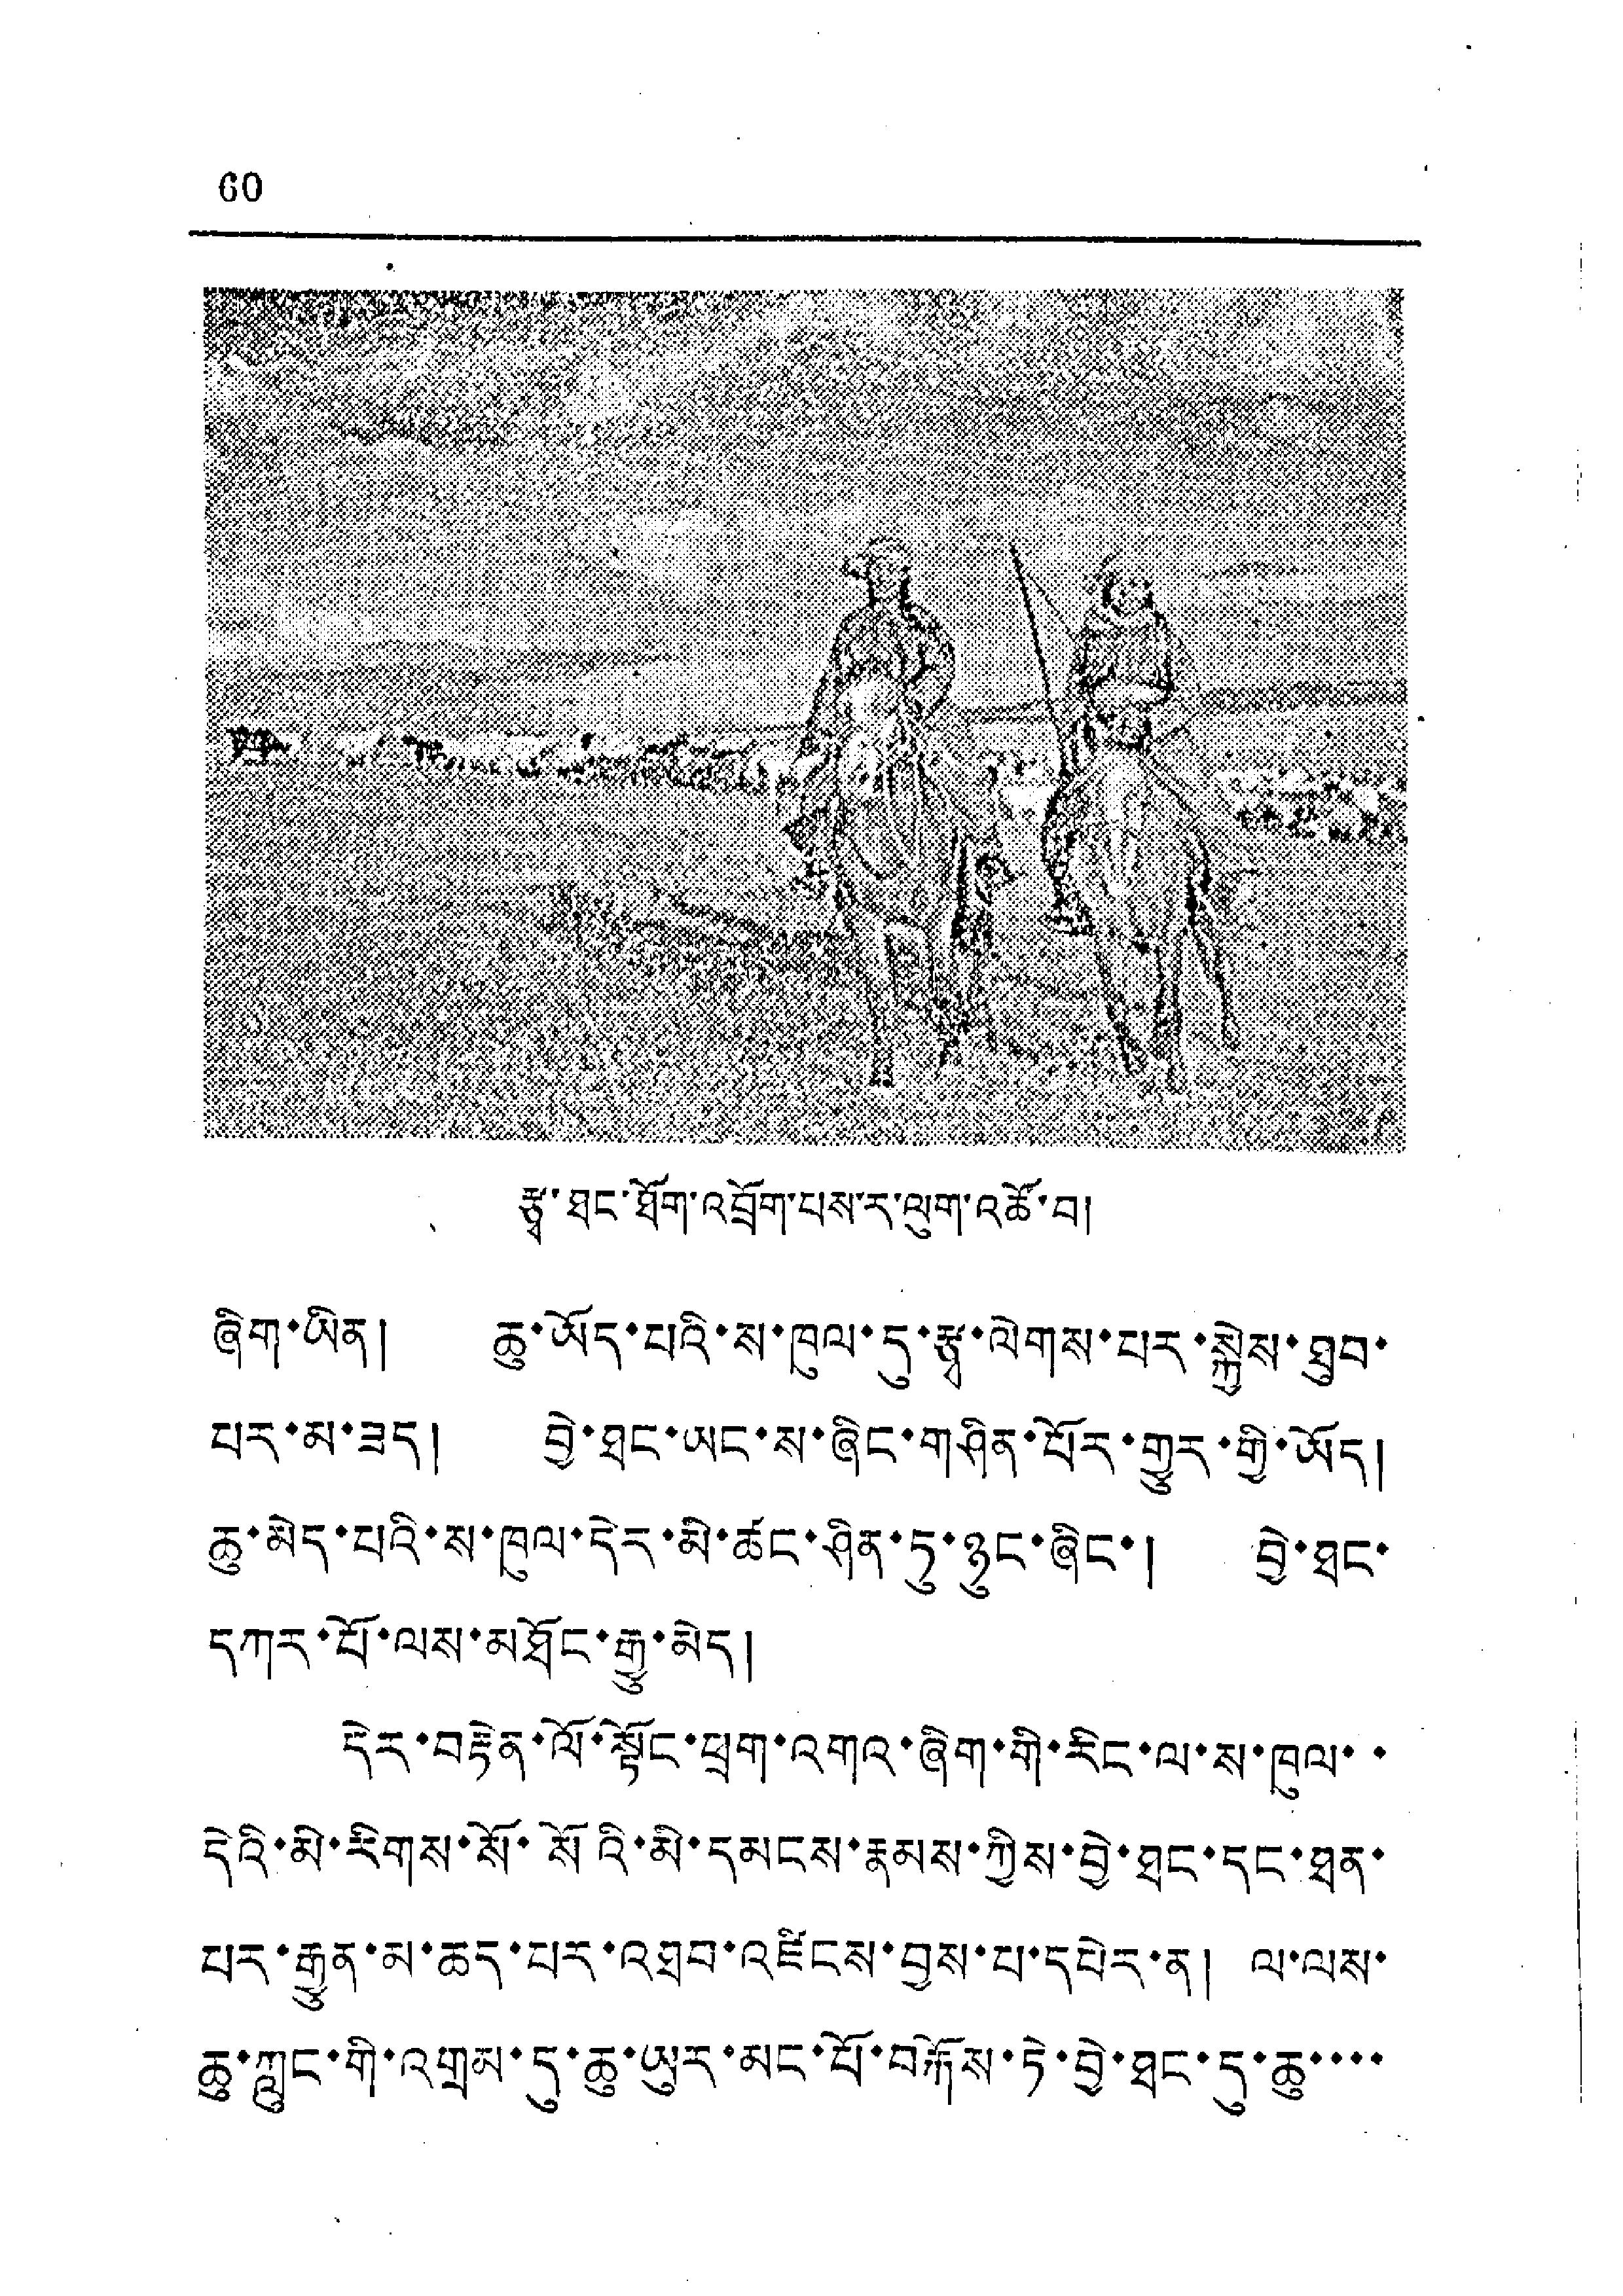60
རྩྭ་ཐང་ཐོག་འབྲོག་པས་ར་ལུག་འཚོ་བ།
ཞིག་ཡིན། ཆུ་ཡོད་པའི་ས་ཁུལ་དུ་རྩྭ་ལེགས་པར་སྐྱེས་ཐུབ་
པར་མ་ཟད། བྱེ་ཐང་ཡང་ས་ཞིང་གཤིན་པོར་གྱུར་གྱི་ཡོད།
ཆུ་མེད་པའི་ས་ཁུལ་དེར་མི་ཚང་ཤིན་ཏུ་ཉུང་ཞིང་། བྱེ་ཐང་
དཀར་པོ་ལས་མཐོང་རྒྱུ་མེད།
དེར་བརྟེན་ལོ་སྟོང་ཕྲག་འགའ་ཞིག་གི་རིང་ལ་ས་ཁུལ་་
དེའི་མི་རིགས་སོ་སོའི་མི་དམངས་རྣམས་ཀྱིས་བྱེ་ཐང་དང་ཐན་
པར་རྒྱུན་མ་ཆད་པར་འཐབ་འཛིངས་བྱས་པ་དཔེར་ན། ལ་ལས་
ཆུ་ཀླུང་གི་འགྲམ་དུ་ཆུ་ཡུར་མང་པོ་བརྐོས་ཏེ་བྱེ་ཐང་དུ་ཆུ་་་་
